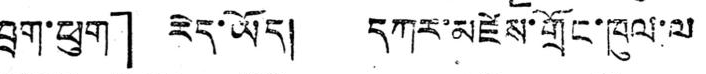བྲག་ཕུག」 རེད་ཡོད། དཀར་མཛེས་གྲོང་ཁུལ་ལ
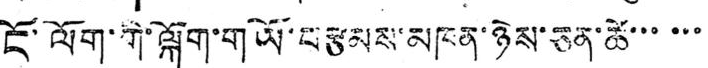ངོ་ལོག་གི་སྐོག་གཡོ་བརྩམས་མཁན་ཉེས་ཅན་ཚེ་་་་་་
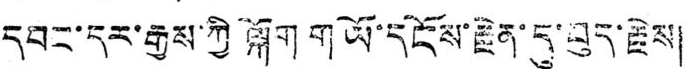དབང་དར་རྒྱས་ཀྱི ལྐོག གཡོ་དངོས་རྗེན་དུ་བུད་རྗེས།
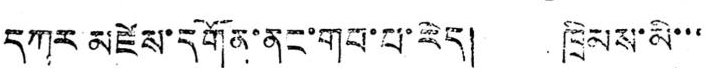དཀར་མཛེས་དགོན་ནང་གབ་པ་རེད། ཁྲིམས་མི་་་
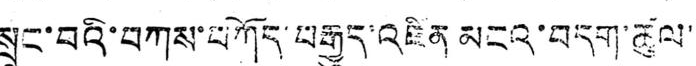སྲུང་བའི་བཀས་བཀོད་བརྒྱུད་འཛིན མངའ་བདག་ཚུལ་
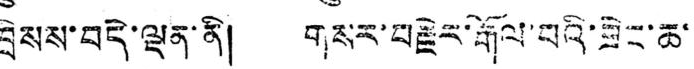ཁྲིསས་བདེ་ལྡན་ནི། གསར་བརྗེར་རྒོལ་བའི་ཟེང་ཆ་
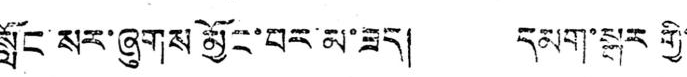སློང་སར་ཞུགས མྱོང་བར་མ་ཟད། དམག་སྒར གྱི་
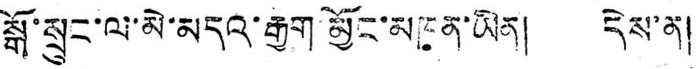སྒོ་སྲུང་ལ་མེ་མདའ་རྒྱག་མྱོང་མཁན་ཡིན། དེས་ན།
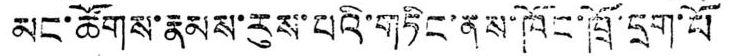མང་ཚོགས་རྣམས་རུས་པའི་གཏིང་ནས་ཁོང་ཁྲོ་དྲག་པོ
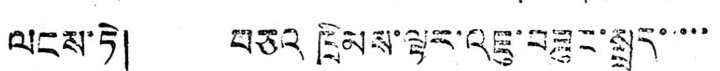ལངས་ཏེ། བཅའ ཁྲིམས་ལྟར་འཇུ་བཟུང་སྤྲད་་་་་
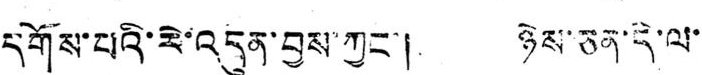དགོས་པའི་རེ་འདུན་བྱས་ཀྱང་། ཉེས་ཅན་དེ་ལ་
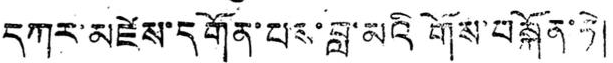དཀར་མཛེས་དགོན་པས་བླ་མའི གོས་བསྐོན་ཏེ།
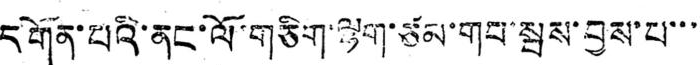དགོན་པའི་ནང་ལོ་གཅིག་ལྷག་ཙམ་གབ་སྦས་བྱས་པ་་་
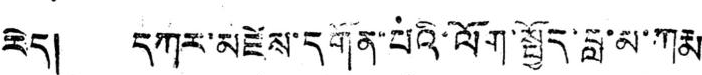རེད། དཀར་མཛེས་དགོན་པའི་ལོག་སྤྱོད་བླ་མ་ཀརྨ
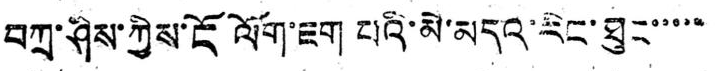བཀྲ་ཤིས་ཀྱིས་ངོ ལོག་ཇག པའི་མེ་མདའ་རིང་ཐུང་་་་་
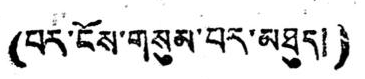(པར་ངོས་གསུམ་པར་མཐུད།)
